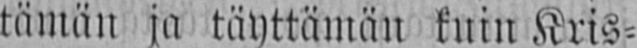tämän ja täyttämän kuin Kris-
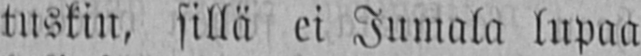tuskin, sillä ei Jumala lupaa
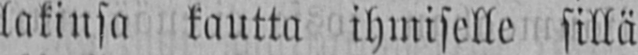lakinsa kautta ihmiselle sillä
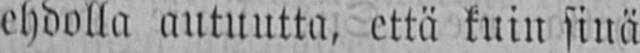ehdolla autuutta, että kuin sinä
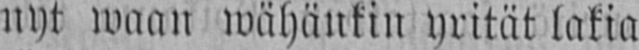nyt waan wähänkin yrität lakia
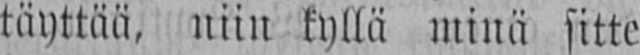täyttää, niin kyllä minä sitte
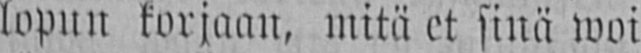lopun korjaan, mitä et sinä woi
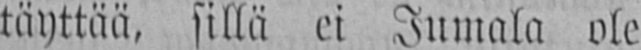täyttää, sillä ei Jumala ole
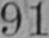61
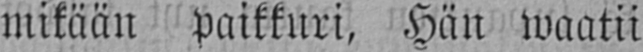mikään paikkuri, Hän waatii
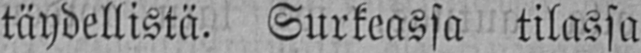täydellistä. Surkeassa tilassa
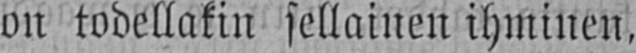on todellakin sellainen ihminen,
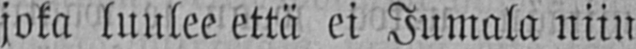joka luulee että ei Jumala niin
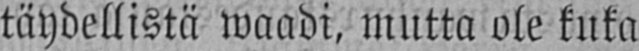täydellistä waadi, mutta ole kuka
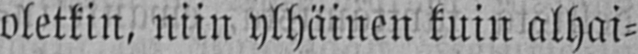oletkin, niin ylhäinen kuin alhai-
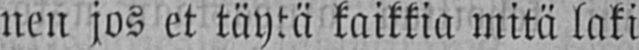nen jos et täytä kaikkia mitä laki
